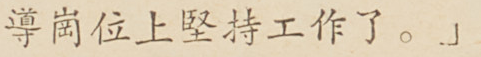導崗位上堅持工作了。」
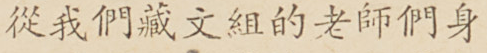從我們藏文組的老師們身
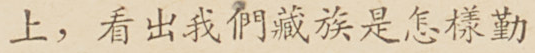上，看出我們藏族是怎樣勤
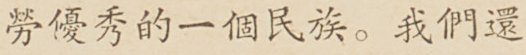勞優秀的一個民族。我們還
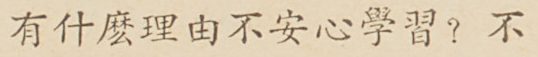有什麼理由不安心學習？不
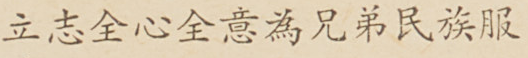立志全心全意為兄弟民族服
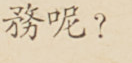務呢？
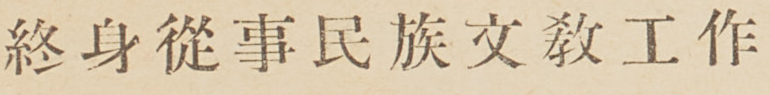終身從事民族文敎工作
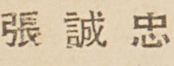張 誠 忠
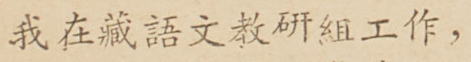我在藏語文教研組工作，
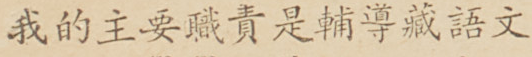我的主要職責是輔導藏語文
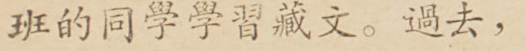班的同學學習藏文。過去，
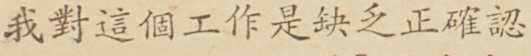我對這個工作是缺乏正確認
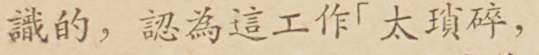識的，認爲這工作「太瑣碎，
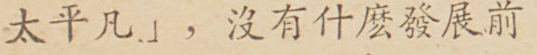太平凡」，沒有什麼發展前
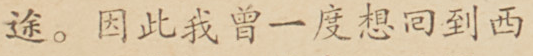途。因此我曾一度想囘到西
